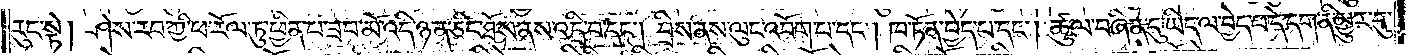རུང་སྟེ། ཤེས་རབ་ཀྱི་ཕ་རོལ་ཏུ་ཕྱིན་པ་ཟབ་མོ་འདི་ཉན་ཅིང་ཐོས་ནས་འདྲི་བ་དང༌། བྲིས་ནས་ལུང་འབོགས་པ་དང༌། ཁ་ཏོན་བྱེད་པ་དང༌། ཚུལ་བཞིན་དུ་ཡིད་ལ་བྱེད་པ་དེ་དག་ནི་མྱུར་དུ་
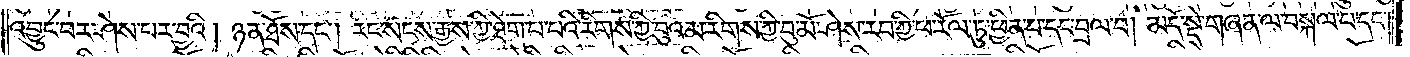འབྱུང་བར་ཤེས་པར་བྱའི། ཉན་ཐོས་དང༌། རང་སངས་རྒྱས་ཀྱི་ཐེག་པ་པའི་རིགས་ཀྱི་བུའམ་རིགས་ཀྱི་བུ་མོ་ཤེས་རབ་ཀྱི་ཕ་རོལ་ཏུ་ཕྱིན་པ་དང་བྲལ་པ། མདོ་སྡེ་གཞན་ལ་བསྐལ་པ་དང༌།
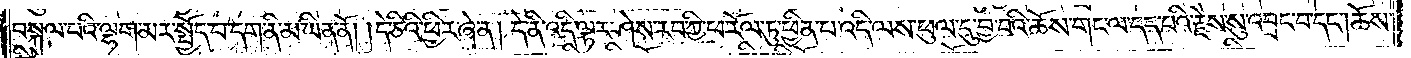བསྐལ་པའི་ལྷག་མར་སྤྱོད་པ་དག་ནི་མ་ཡིན་ནོ། །དེ་ཅིའི་ཕྱིར་ཞེ་ན། དེ་ནི་འདི་ལྟར་ཤེས་རབ་ཀྱི་ཕ་རོལ་ཏུ་ཕྱིན་པ་འདི་ལས་ཕུལ་དུ་བྱ་བའི་ཆོས་གང་ལ་དད་པའི་རྗེས་སུ་འབྲང་བ་དང༌། ཆོས་
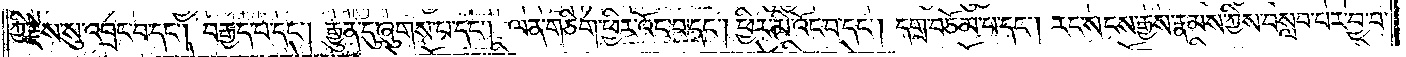ཀྱི་རྗེས་སུ་འབྲང་བ་དང༌། བརྒྱད་པ་དང༌། རྒྱུན་དུ་ཞུགས་པ་དང༌། ལན་གཅིག་ཕྱིར་འོང་བ་དང༌། ཕྱིར་མི་འོང་བ་དང༌། དགྲ་བཅོམ་པ་དང༌། རང་སངས་རྒྱས་རྣམས་ཀྱིས་བསླབ་པར་བྱ་བ་
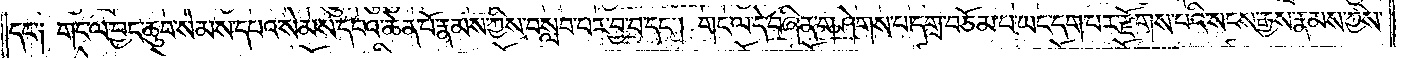དང༌། གང་ལ་བྱང་ཆུབ་སེམས་དཔའ་སེམས་དཔའ་ཆེན་པོ་རྣམས་ཀྱིས་བསླབ་པར་བྱ་བ་དང༌། གང་ལ་དེ་བཞིན་གཤེགས་པ་དགྲ་བཅོམ་པ་ཡང་དག་པར་རྫོགས་པའི་སངས་རྒྱས་རྣམས་ཀྱིས་
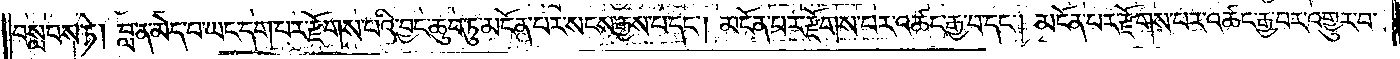བསླབས་ཏེ། བླ་ན་མེད་པ་ཡང་དག་པར་རྫོགས་པའི་བྱང་ཆུབ་ཏུ་མངོན་པར་སངས་རྒྱས་པ་དང༌། མངོན་པར་རྫོགས་པར་འཚང་རྒྱ་བ་དང༌། མངོན་པར་རྫོགས་པར་འཚང་རྒྱ་བར་འགྱུར་བ་
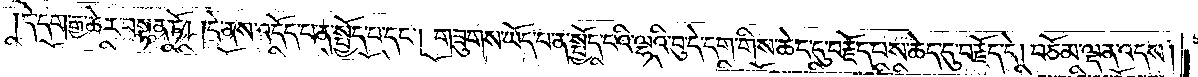དེ་དག་རྒྱ་ཆེར་བསྟན་ཏོ། །དེ་ནས་འདོད་པ་ན་སྤྱོད་པ་དང༌། གཟུགས་ཡོད་པ་ན་སྤྱོད་པའི་ལྷའི་བུ་དེ་དག་གིས་ཆེད་དུ་བརྗོད་པས་ཆེད་དུ་བརྗོད་དེ། བཅོམ་ལྡན་འདས།
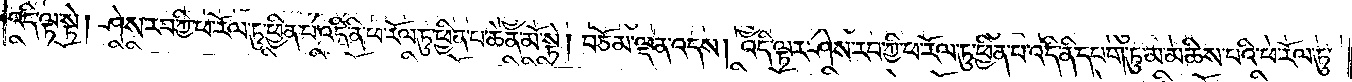འདི་ལྟ་སྟེ། ཤེས་རབ་ཀྱི་ཕ་རོལ་ཏུ་ཕྱིན་པ་འདི་ནི་ཕ་རོལ་ཏུ་ཕྱིན་པ་ཆེན་མོ་སྟེ། བཅོམ་ལྡན་འདས། འདི་ལྟར་ཤེས་རབ་ཀྱི་ཕ་རོལ་ཏུ་ཕྱིན་པ་འདི་ནི་དཔག་ཏུ་མ་མཆིས་པའི་ཕ་རོལ་ཏུ་
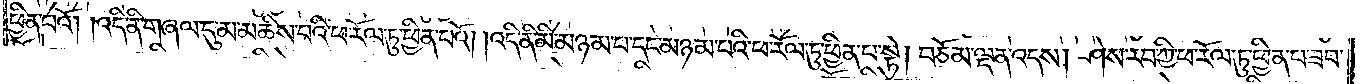ཕྱིན་པའོ། །འདི་ནི་གཞལ་དུ་མ་མཆིས་པའི་ཕ་རོལ་ཏུ་ཕྱིན་པའོ། །འདི་ནི་མི་མཉམ་པ་དང་མཉམ་པའི་ཕ་རོལ་ཏུ་ཕྱིན་པ་སྟེ། བཅོམ་ལྡན་འདས། ཤེས་རབ་ཀྱི་ཕ་རོལ་ཏུ་ཕྱིན་པ་ཟབ་
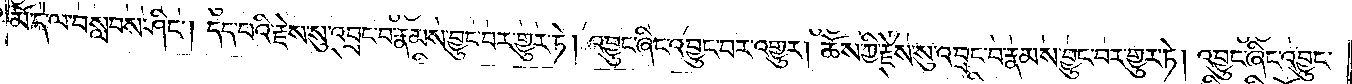མོ་དེ་ལ་བསླབས་ཤིང༌། དད་པའི་རྗེས་སུ་འབྲང་བ་རྣམས་བྱུང་བར་གྱུར་ཏེ། འབྱུང་ཞིང་འབྱུང་བར་འགྱུར། ཆོས་ཀྱི་རྗེས་སུ་འབྲང་བ་རྣམས་བྱུང་བར་གྱུར་ཏེ། འབྱུང་ཞིང་འབྱུང་
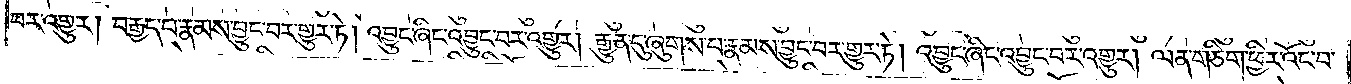བར་འགྱུར། བརྒྱད་པ་རྣམས་བྱུང་བར་གྱུར་ཏེ། འབྱུང་ཞིང་འབྱུང་བར་འགྱུར། རྒྱུན་དུ་ཞུགས་པ་རྣམས་བྱུང་བར་གྱུར་ཏེ། འབྱུང་ཞིང་འབྱུང་བར་འགྱུར། ལན་གཅིག་ཕྱིར་འོང་བ་
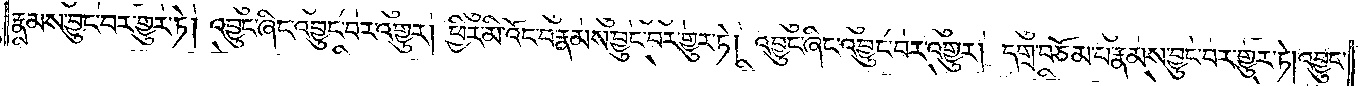རྣམས་བྱུང་བར་གྱུར་ཏོ། །འབྱུང་ཞིང་འབྱུང་བར་འགྱུར། ཕྱིར་མི་འོང་བ་རྣམས་བྱུང་བར་གྱུར་ཏེ། འབྱུང་ཞིང་འབྱུང་བར་འགྱུར། དགྲ་བཅོམ་པ་རྣམས་བྱུང་བར་གྱུར་ཏེ། འབྱུང་
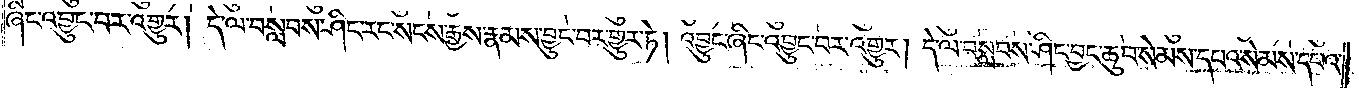ཞིང་འབྱུང་བར་འགྱུར། དེ་ལ་བསླབས་ཤིང་རང་སངས་རྒྱས་རྣམས་བྱུང་བར་གྱུར་ཏེ། འབྱུང་ཞིང་འབྱུང་བར་འགྱུར། དེ་ལ་བསླབས་ཤིང་བྱང་ཆུབ་སེམས་དཔའ་སེམས་དཔའ་
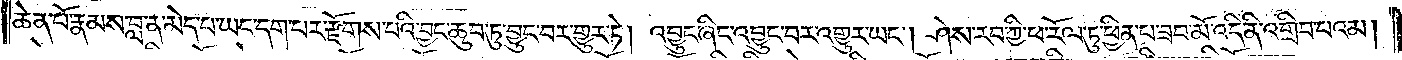ཆེན་པོ་རྣམས་བླ་ན་མེད་པ་ཡང་དག་པར་རྫོགས་པའི་བྱང་ཆུབ་ཏུ་བྱུང་བར་གྱུར་ཏེ། འབྱུང་ཞིང་འབྱུང་བར་འགྱུར་ཡང༌། ཤེས་རབ་ཀྱི་ཕ་རོལ་ཏུ་ཕྱིན་པ་ཟབ་མོ་འདི་ནི་འགྲིབ་པའམ།
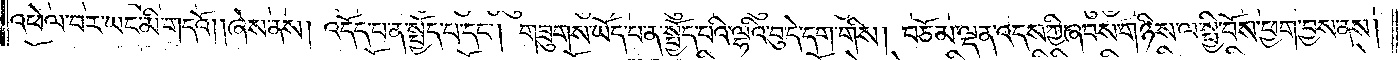འཕེལ་བར་ཡང་མི་གདའ་འོ་ཞེས་ནས། འདོད་པ་ན་སྤྱོད་པ་དང༌། གཟུགས་ཡོད་པ་ན་སྤྱོད་པའི་ལྷའི་བུ་དེ་དག་གིས། བཅོམ་ལྡན་འདས་ཀྱི་ཞབས་གཉིས་ལ་སྤྱི་བོས་ཕྱག་བྱས་ནས།
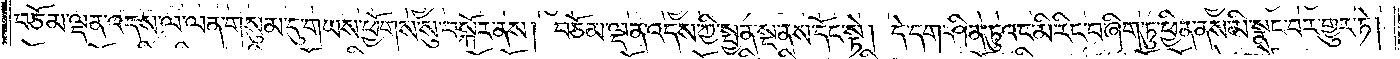བཅོམ་ལྡན་འདས་ལ་ལན་གསུམ་དུ་གཡས་ཕྱོགས་སུ་བསྐོར་ནས། བཅོམ་ལྡན་འདས་ཀྱི་སྤྱན་སྔ་ནས་དོང་སྟེ། དེ་དག་ཤིན་ཏུའང་མི་རིང་བ་ཞིག་ཏུ་ཕྱིན་ནས་མི་སྣང་བར་གྱུར་ཏེ།
